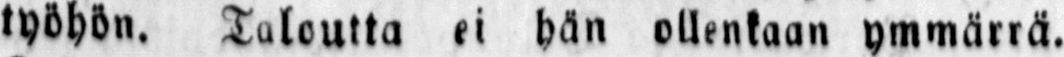työhön. Taloutta ei hän ollenkaan ymmärrä.
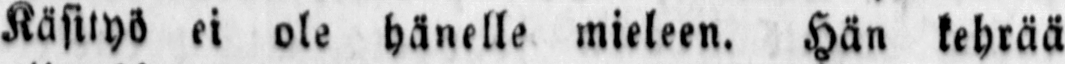Käsityö ei ole hänelle mieleen. Hän kehrää
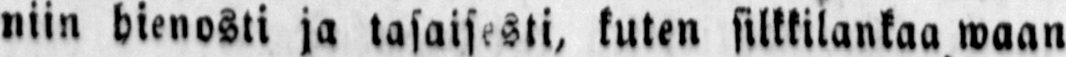niin hienosti ja tasaisesti, kuten silkkilankaa waan
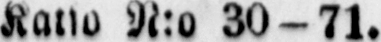*)Katso N:o 30-71.
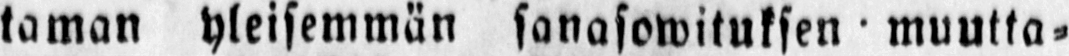taman yleisemmän sanasowituksen muutta-
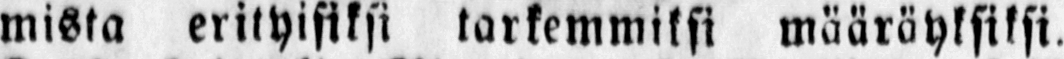mista erityisiksi tarkemmiksi määräyksiksi.
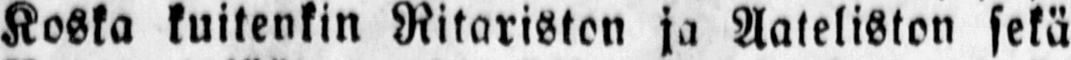Koska kuitenkin Ritariston ja Aateliston sekä
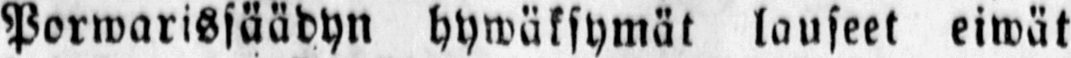Porwarissäädyn hywäksymät lauseet eiwät
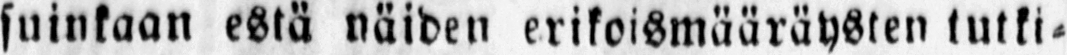suinkaan estä näiden erikoismääräysten tutki-
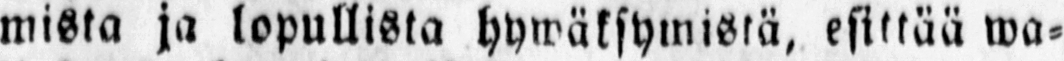mista ja lopullista hywäksymistä, esittää wa-
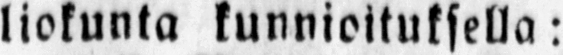liokunta kunnioituksella:
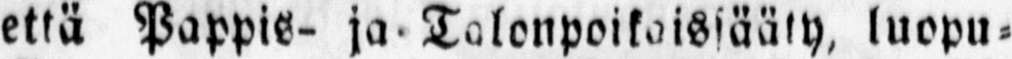että Pappis- ja Talonpoikaissääty, luopu-
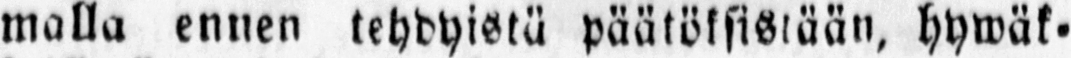malla ennen tehdyistä päätöksistään, hywäk-
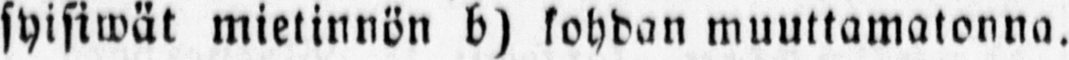syisiwät mietinnön b) kohdan muuttamatonna.
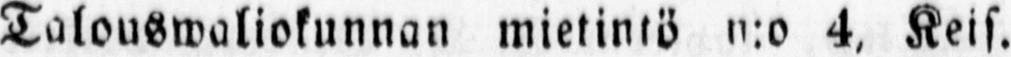Talouswaliokunnan mietintö n:o 4, Keis.
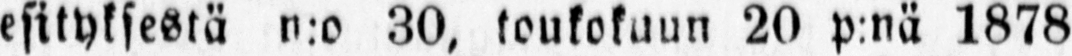esityksestä n:o 30, toukokuun 20 p:nä 1878
